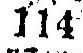114
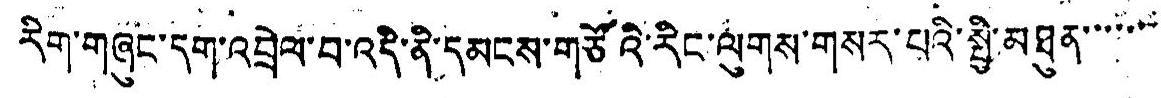རིག་གཞུང་དག་འབྲེལ་བ་འདི་ནི་དམངས་གཙོའི་རིང་ལུགས་གསར་པའི་སྤྱི་མཐུན་་་་་་་
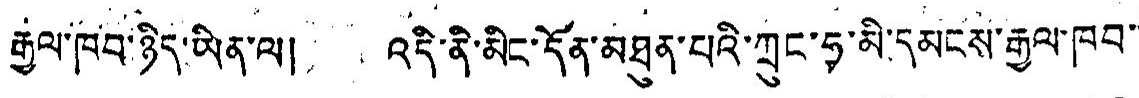རྒྱལ་ཁབ་ཉིད་ཡིན་ལ། འདི་ནི་མིང་དོན་མཐུན་པའི་ཀྲུང་ཧྭ་མི་དམངས་རྒྱལ་ཁབ་
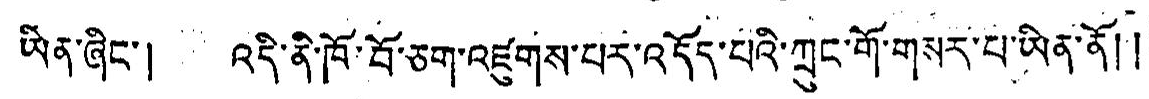ཡིན་ཞིང་། འདི་ནི་ཁོ་བོ་ཅག་འཛུགས་པར་འདོད་པའི་ཀྲུང་གོ་གསར་པ་ཡིན་ནོ།།
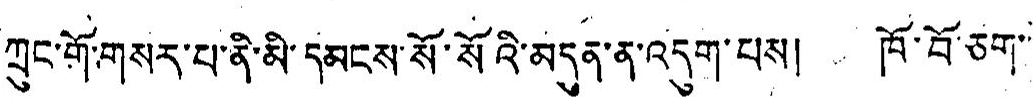ཀྲུང་གོ་གསར་པ་ནི་མི་དམངས་སོ་སོའི་མདུན་ན་འདུག་པས། ཁོ་བོ་ཅག་་
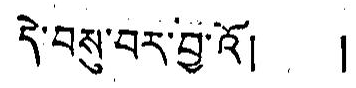དེ་བསུ་བར་བྱ་འོ། །
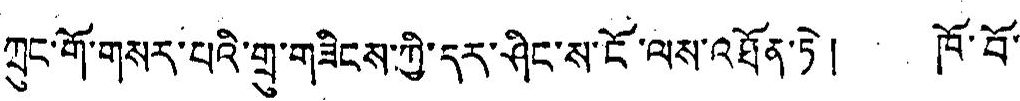ཀྲུང་གོ་གསར་པའི་གྲ་གཟིངས་ཀྱི་དར་ཤིང་ས་ངོ་ལས་འཐོན་ཏེ། ཁོ་བོ་་
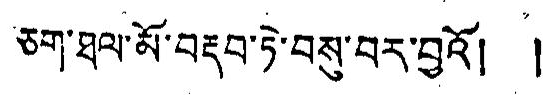ཅག་ཐལ་མོ་བརྡབ་ཏེ་བསུ་བར་བྱའོ། །
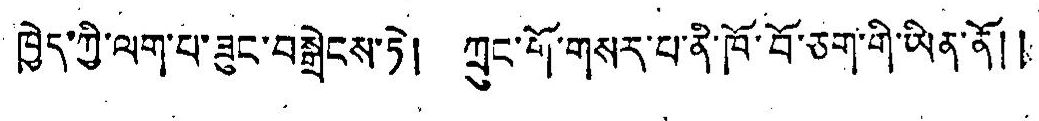ཁྱེད་ཀྱི་ལག་པ་ཟུང་བསྒྲེངས་ཏེ། ཀྲུང་གོ་གསར་པ་ནི་ཁོ་བོ་ཅག་གི་ཡིན་ནོ།།
